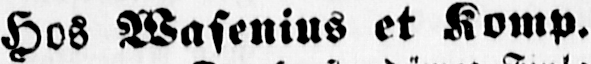Hos Wasenius et Komp.
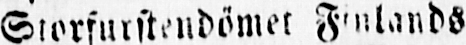Storfurstendömet Finlands
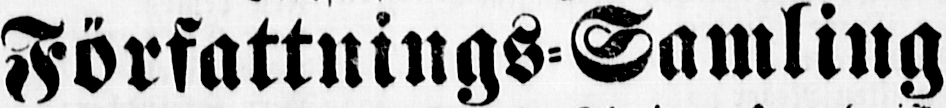Författnings-Samling
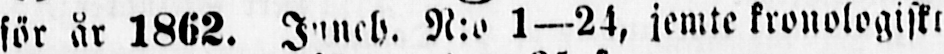för år 1862. Junch. N:o 1—24, jemte kronologiskt
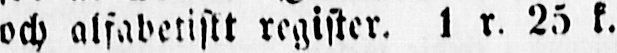och alfabetiskt register. 1 r. 25 k.
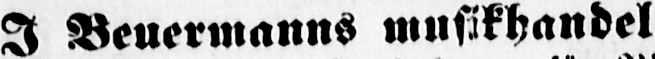I Beuermanns musikhandel
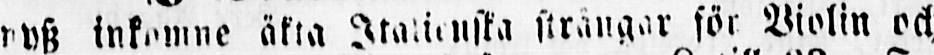nysz inkomne äkta Italienska strängar för Violin och
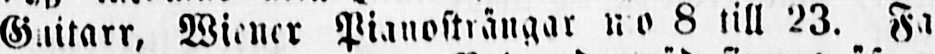Guitarr, Wiener Pianosträngar no 8 till 23. Fa-
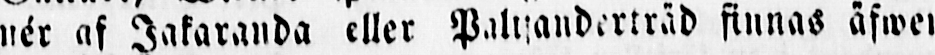nér af Jakaranda eller Palisanderträd finnas äfwen
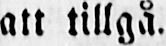att tillgå.
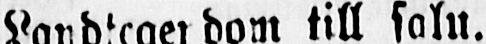Landtegendom till salu.
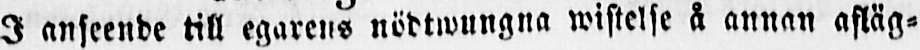I anseende till egarens nödtwungna wistelse å annan afläg-
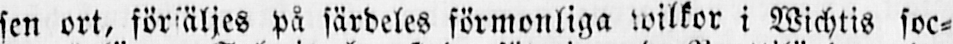sen ort, förs äljes på särdeles förmonliga wilkor i Wichtis soc-
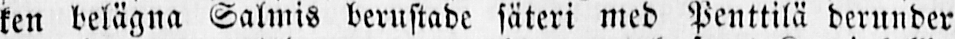ken belägna Salmis berustade säteri med Penttilä derunder
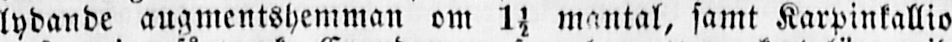lydande augmentshemman om 1½ mantal, samt Karpinkallio
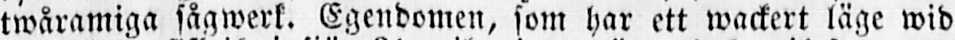twåramiga sågwerk. Egendomen, som har ett wackert läge wid
